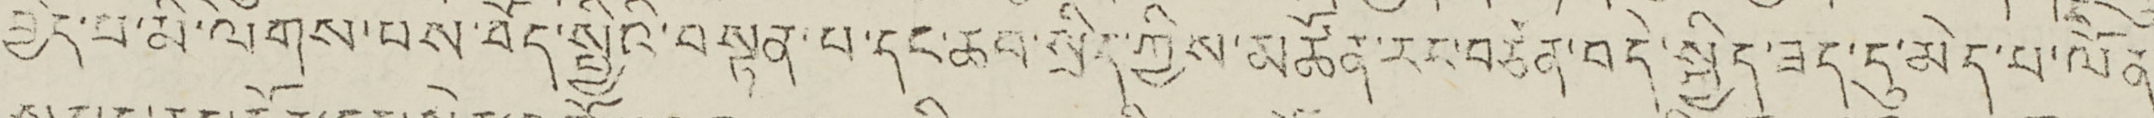བྱེད་པ་མི་ལེགས་པས་བོད་སྤྱིའི་བསྟན་པ་དང་ཆབ་སྲིད་ཀྱིས་མཚོན་རང་བཙན་བདེ་སྐྱིད་ཟད་དུ་མེད་པ་ལོན་
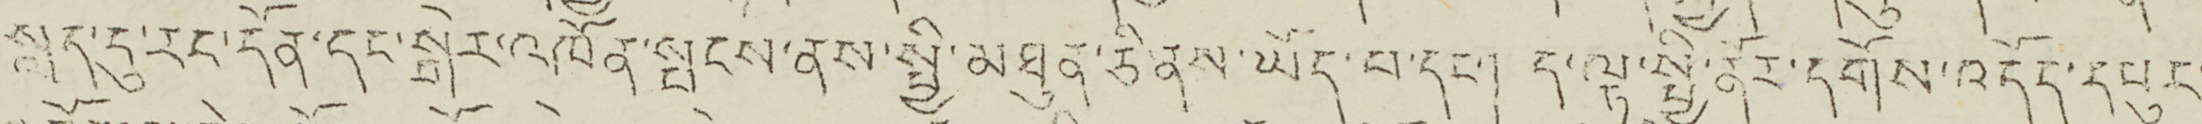སླད་དུ་རང་དོན་དང་སྒེར་འཁོན་སྤངས་ནས་སྤྱི་མཐུན་ཅི་ནས་ཡོད་པ་དང་། ད་ལྟ་སྤྱི་ནོར་དགོས་འདོད་དཔུང་
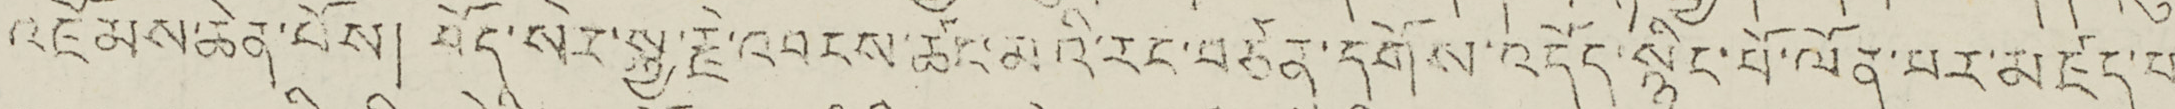འཇོམས་ཆེན་པོས། བོད་སེར་སྐྱ་རྗེ་འབངས་ཚང་མའི་རང་བཙན་དགོས་འདོད་སྙིང་པོ་ལོན་པར་མཛད་པ་
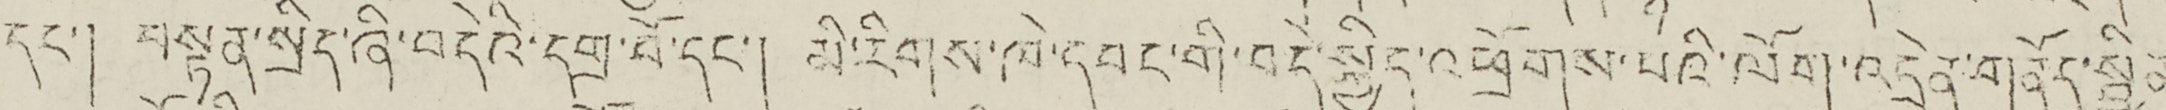དང་། བསྟན་སྲིད་ཞི་བདེའི་དགྲ་པོ་དང་། མི་རིགས་ཁེ་དབང་གི་བདེ་སྐྱིད་འཕྲོགས་པའི་ལོག་འདྲེན་གནོད་སྦྱིན་
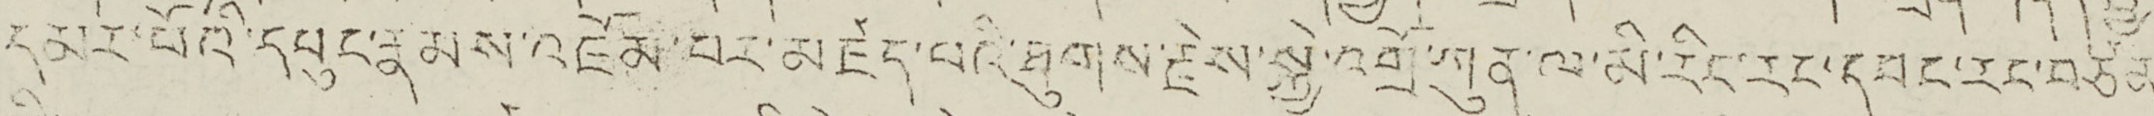དམར་པོའི་དཔུང་རྣམས་འཇོམ་བར་མཛད་པའི་ཐུགས་རྗེས་སྐྱེ་འགྲོ་ཀུན་ལ་མི་རིང་དབང་རང་བཙན་
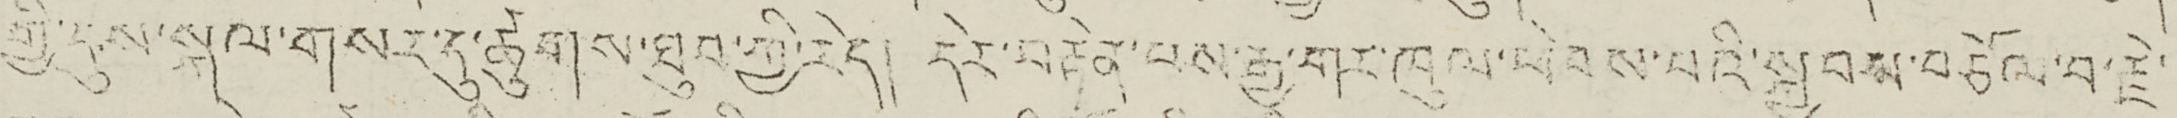གྱི་དུས་སྐལ་གསར་དུ་ཚུགས་ཐུབ་ཀྱི་རེད། དེར་བརྟེན་པས་རྒྱ་གར་ཁུལ་ཕེབས་པའི་སྐྱབས་བཅོལ་བ་རྗེ་
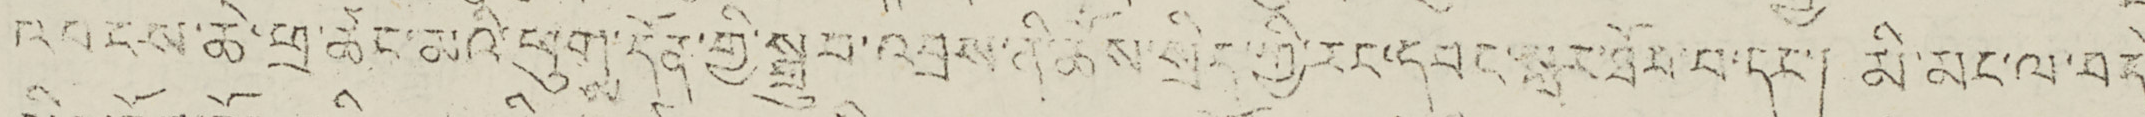འབངས་ཆེན་ཕྲ་ཚང་མའི་ཕྲུགས་དོན་གྱི་སྦྲུབ་འབྲས་ནི་ཆོས་སྲིད་གྱི་རང་དབང་སླར་ཐོབ་པ་དང་། མི་མང་ལ་བདེ་
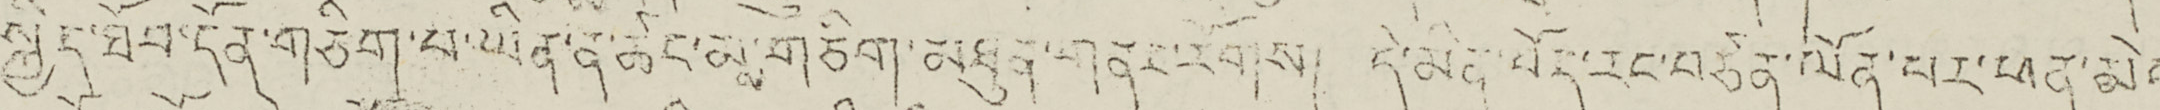སྐྱིད་ཐོབ་དོན་གཅིག་པ་ཡིན་ན་ཚང་མས་གཅིག་མཐུན་གནང་རོགས། དེ་མིན་བོད་རང་བཙན་ལོན་པར་ཕན་མེད་
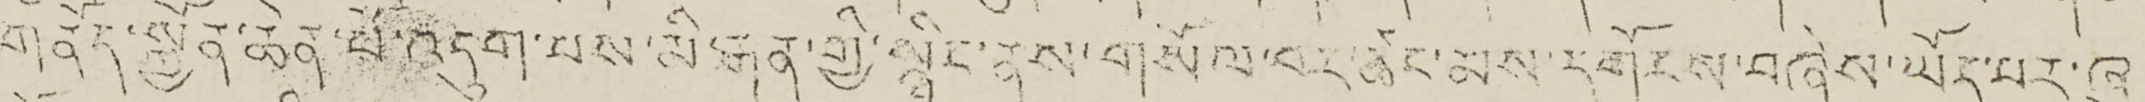གནོད་སྐྱོན་ཆེན་པོ་འདུག་པས་མི་རྒན་གྱི་སྙིང་ནས་གསོལ་བར་ཚང་མས་དགོངས་བཞེས་ཡོད་པར་ཞུ།
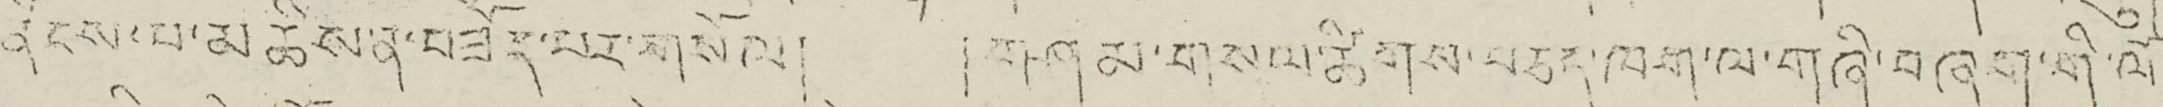ནོངས་པ་མཆིས་ན་བཟོད་པར་གསོལ། །གཤམ་གསལ་ཚིགས་བཅད་ལག་ལ་གཞི་བཞག་གི་ལོ་
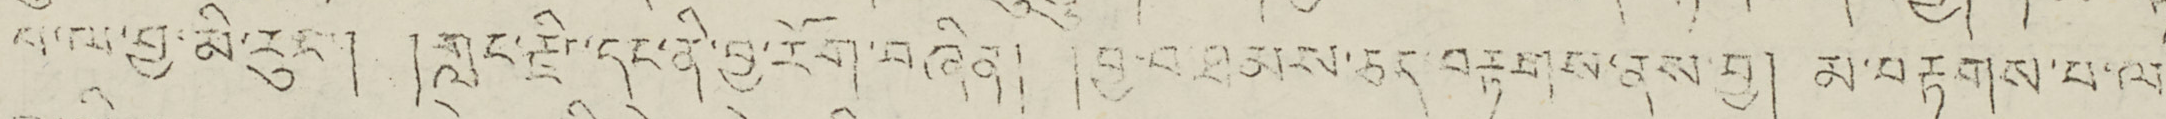པ་ལ་བྱ་མི་རུང་། །གླང་རྫིང་དང་ནི་བྱ་རོག་བཞིན། །བྱ་བ་ཐམས་ཅད་བརྟགས་ནས་བྱ། །མ་བརྟགས་པ་ལ་
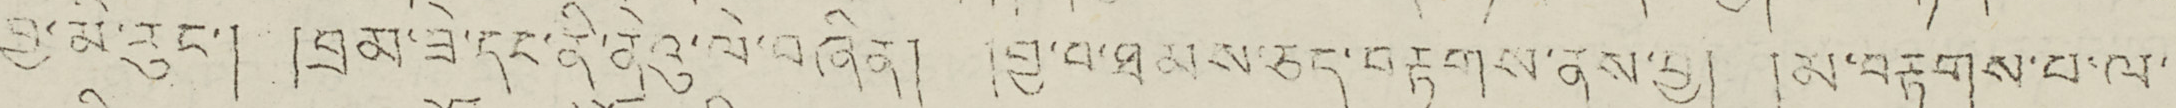བྱ་མི་རུང་། །བྲམ་ཟེ་དང་ནི་ནེའུ་ལེ་བཞིན། །བྱ་བ་ཐམས་ཅད་བརྟགས་ན་བྱ། མ་བརྟགས་པ་ལ་
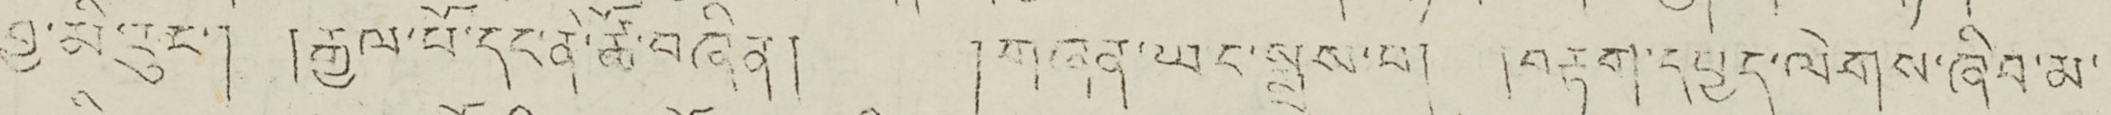བྱ་མི་རུང་། །རྒྱལ་པོ་དང་ནེ་ཚོ་བཞིན། །གཞན་ཡང་སླས་པ། །བརྟག་དཔྱད་ལེགས་ཞིབ་མ་
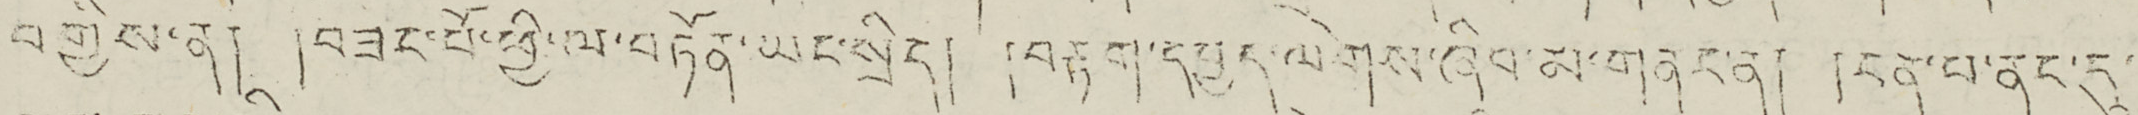བགྱིས་ན། །བཟང་པོ་ཕྱི་ལ་བཏོན་ཡང་སྲིད། །བརྟག་དཔྱད་ལེགས་ཞིབ་མ་གནང་ན། །ངན་པ་ནང་དུ་
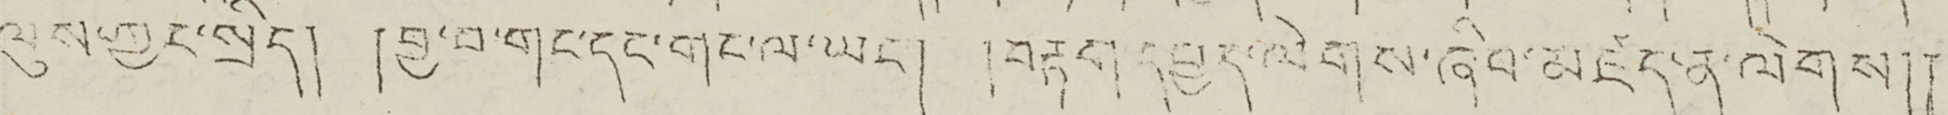ལུས་གྱང་སྲིད། །བྱ་བ་གང་དང་གང་ལ་ཡང་། །བརྟག་དཔྱད་ལེགས་ཞིབ་མཛད་ན་ལེགས།།
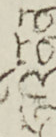ཧའི་ནན་
